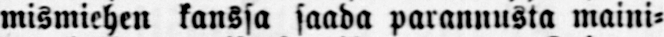mismiehen kanssa saada parannusta maini-
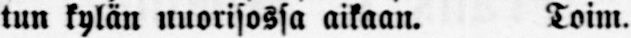tun kylän nuorisossa aikaan. Toim.
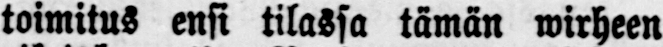toimitus ensi tilassa tämän wirheen
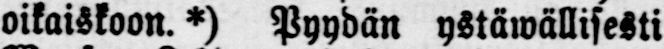oikaiskoon. *) Pyydän ystäwällisesti
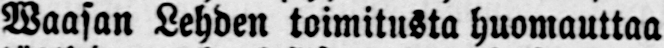Waasan Lehden toimitusta huomauttaa
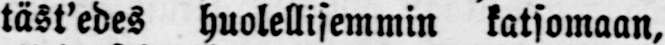täst'edes huolellisemmin katsomaan,
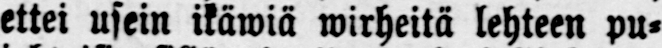ettei usein ikäwiä wirheitä lehteen pu-
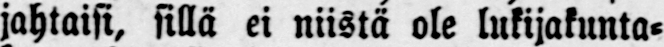jahtaisi, sillä ei niistä ole lukijakunta-
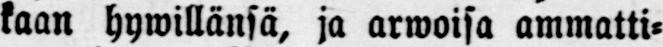kaan hywillänsä, ja arwoisa ammatti-
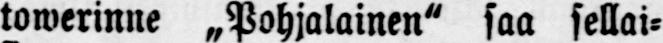towerinne „Pohjalainen" saa sellai-
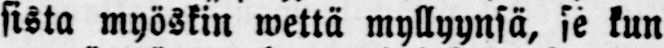sista myöskin wettä myllyynsä, se kun
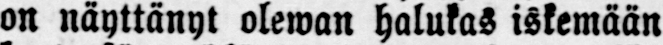on näyttänyt olewan halukas iskemään
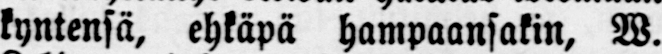kyntensä, ehkäpä hampaansakin, W.
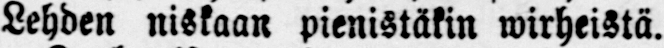Lehden niskaan pienistäkin wirheistä.
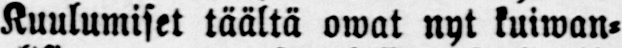Kuulumiset täältä owat nyt kuiwan-
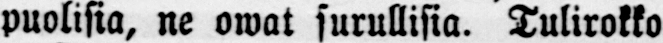puolisia, ne owat surullisia. Tulirokko
